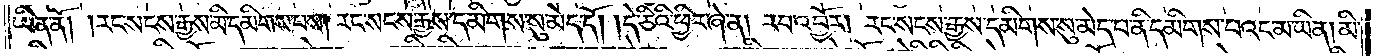ཡིན་ནོ། །རང་སངས་རྒྱས་མི་དམིགས་པས། རང་སངས་རྒྱས་དམིགས་སུ་མེད་དོ། །དེ་ཅིའི་ཕྱིར་ཞེ་ན། རབ་འབྱོར། རང་སངས་རྒྱས་དམིགས་སུ་མེད་པ་ནི་དམིགས་པའང་མ་ཡིན། མི་
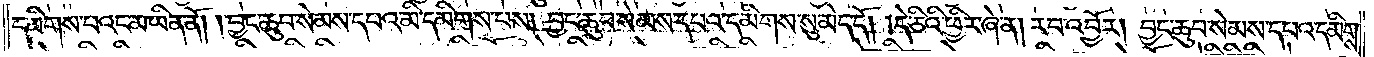དམིགས་པའང་མ་ཡིན་ནོ། །བྱང་ཆུབ་སེམས་དཔའ་མི་དམིགས་པས། བྱང་ཆུབ་སེམས་དཔའ་དམིགས་སུ་མེད་དོ། །དེ་ཅིའི་ཕྱིར་ཞེ་ན། རབ་འབྱོར། བྱང་ཆུབ་སེམས་དཔའ་དམིགས་
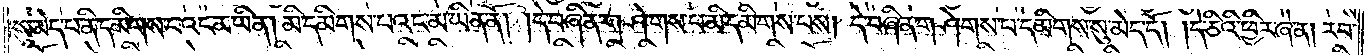སུ་མེད་པ་ནི་དམིགས་པའང་མ་ཡིན། མི་དམིགས་པའང་མ་ཡིན་ནོ། །དེ་བཞིན་གཤེགས་པ་མི་དམིགས་པས། དེ་བཞིན་གཤེགས་པ་དམིགས་སུ་མེད་དོ། །དེ་ཅིའི་ཕྱིར་ཞེ་ན། རབ་
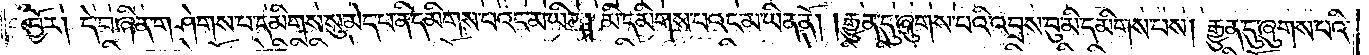འབྱོར། དེ་བཞིན་གཤེགས་པ་དམིགས་སུ་མེད་པ་ནི་དམིགས་པའང་མ་ཡིན། མི་དམིགས་པའང་མ་ཡིན་ནོ། །རྒྱུན་དུ་ཞུགས་པའི་འབྲས་བུ་མི་དམིགས་པས། རྒྱུན་དུ་ཞུགས་པའི་
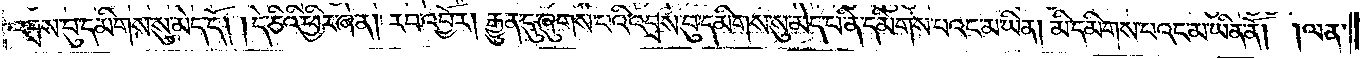འབྲས་བུ་དམིགས་སུ་མེད་དོ། །དེ་ཅིའི་ཕྱིར་ཞེ་ན། རབ་འབྱོར། རྒྱུན་དུ་ཞུགས་པའི་འབྲས་བུ་དམིགས་སུ་མེད་པ་ནི་དམིགས་པའང་མ་ཡིན། མི་དམིགས་པའང་མ་ཡིན་ནོ། །ལན་
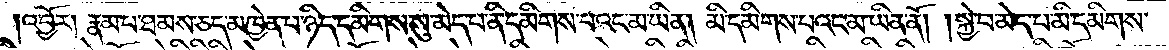འབྱོར། རྣམ་པ་ཐམས་ཅད་མཁྱེན་པ་ཉིད་དམིགས་སུ་མེད་པ་ནི་དམིགས་པའང་མ་ཡིན། མི་དམིགས་པའང་མ་ཡིན་ནོ། །སྐྱེ་བ་མེད་པ་མི་དམིགས་
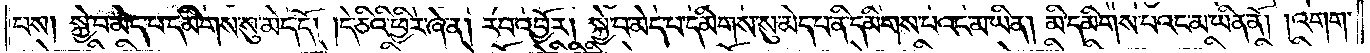པས། སྐྱེ་བ་མེད་པ་དམིགས་སུ་མེད་དོ། །དེ་ཅིའི་ཕྱིར་ཞེ་ན། རབ་འབྱོར། སྐྱེ་བ་མེད་པ་དམིགས་སུ་མེད་པ་ནི་དམིགས་པའང་མ་ཡིན། མི་དམིགས་པའང་མ་ཡིན་ནོ། །འགག་
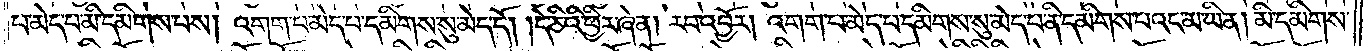པ་མེད་པ་མི་དམིགས་པས། འགག་པ་མེད་པ་དམིགས་སུ་མེད་དོ། །དེ་ཅིའི་ཕྱིར་ཞེ་ན། རབ་འབྱོར། འགག་པ་མེད་པ་དམིགས་སུ་མེད་པ་ནི་དམིགས་པའང་མ་ཡིན། མི་དམིགས་
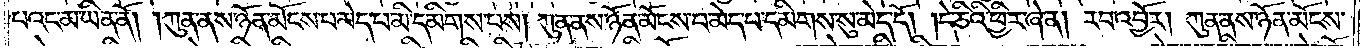པའང་མ་ཡིན་ནོ། །ཀུན་ནས་ཉོན་མོངས་པ་མེད་པ་མི་དམིགས་པས། ཀུན་ནས་ཉོན་མོངས་པ་མེད་པ་དམིགས་སུ་མེད་དོ། །དེ་ཅིའི་ཕྱིར་ཞེ་ན། རབ་འབྱོར། ཀུན་ནས་ཉོན་མོངས་
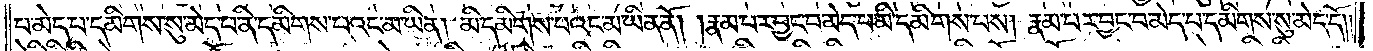པ་མེད་པ་དམིགས་སུ་མེད་པ་ནི་དམིགས་པའང་མ་ཡིན། མི་དམིགས་པའང་མ་ཡིན་ནོ། །རྣམ་པར་བྱང་བ་མེད་པ་མི་དམིགས་པས། རྣམ་པར་བྱང་བ་མེད་པ་དམིགས་སུ་མེད་དོ། །
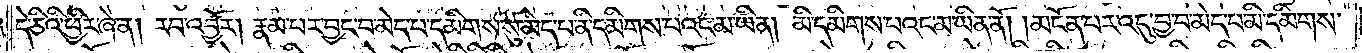དེ་ཅིའི་ཕྱིར་ཞེ་ན། རབ་འབྱོར། རྣམ་པར་བྱང་བ་མེད་པ་དམིགས་སུ་མེད་པ་ནི་དམིགས་པའང་མ་ཡིན། མི་དམིགས་པའང་མ་ཡིན་ནོ། །མངོན་པར་འདུ་བྱ་བ་མེད་པ་མི་དམིགས་
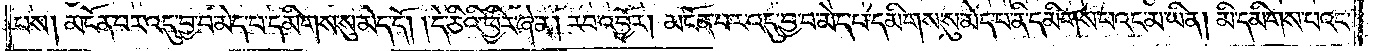པས། མངོན་པར་འདུ་བྱ་བ་མེད་པ་དམིགས་སུ་མེད་དོ། །དེ་ཅིའི་ཕྱིར་ཞེ་ན། རབ་འབྱོར། མངོན་པར་འདུ་བྱ་བ་མེད་པ་དམིགས་སུ་མེད་པ་ནི་དམིགས་པའང་མ་ཡིན། མི་དམིགས་པའང་
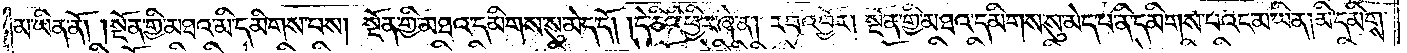མ་ཡིན་ནོ། །སྔོན་གྱི་མཐའ་མི་དམིགས་པས། སྔོན་གྱི་མཐའ་དམིགས་སུ་མེད་དོ། །དེ་ཅིའི་ཕྱིར་ཞེ་ན། རབ་འབྱོར། སྔོན་གྱི་མཐའ་དམིགས་སུ་མེད་པ་ནི་དམིགས་པའང་མ་ཡིན། མི་དམིགས་
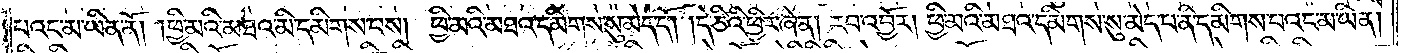པའང་མ་ཡིན་ནོ། །ཕྱི་མའི་མཐའ་མི་དམིགས་པས། ཕྱི་མའི་མཐའ་དམིགས་སུ་མེད་དོ། །དེ་ཅིའི་ཕྱིར་ཞེ་ན། རབ་འབྱོར། ཕྱི་མའི་མཐའ་དམིགས་སུ་མེད་པ་ནི་དམིགས་པའང་མ་ཡིན།
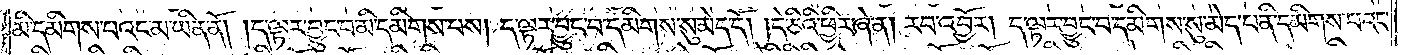མི་དམིགས་པའང་མ་ཡིན་ནོ། །ད་ལྟར་བྱུང་བ་མི་དམིགས་པས། ད་ལྟར་བྱུང་བ་དམིགས་སུ་མེད་དོ། །དེ་ཅིའི་ཕྱིར་ཞེ་ན། རབ་འབྱོར། ད་ལྟར་བྱུང་བ་དམིགས་སུ་མེད་པ་ནི་དམིགས་པའང་
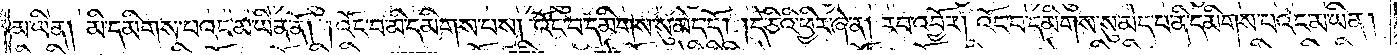མ་ཡིན། མི་དམིགས་པའང་མ་ཡིན་ནོ། འོང་བ་མི་དམིགས་པས། འོང་པ་དམིགས་སུ་མེད་དོ། །དེ་ཅིའི་ཕྱིར་ཞེ་ན། རབ་འབྱོར། འོང་བ་དམིགས་སུ་མེད་པ་ནི་དམིགས་པའང་མ་ཡིན།
